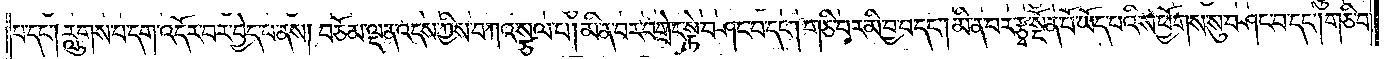པ་དང༌། རླུགས་པ་དག་འདོར་བར་བྱེད་པ་ནས། བཅོམ་ལྡན་འདས་ཀྱིས་བཀའ་སྩལ་པ། མི་ན་བར་བགྲེང་སྟེ་བཤང་བ་དང༌། གཅི་བར་མི་བྱ་བ་དང༌། མི་ན་བར་རྩྭ་སྔོན་པོ་ཡོད་པའི་ས་ཕྱོགས་སུ་བཤང་བ་དང༌། གཅིག་
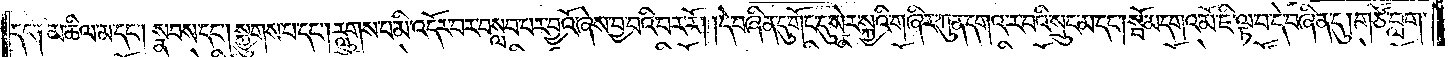དང་༑ མཆིལ་མ་དང༌། སྣབས་དང༌། སྐྱུགས་པ་དང༌། རླུགས་པ་མི་འདོར་བར་བསླབ་པར་བྱའོ་ཞེས་བྱ་བའི་བར་རོ། །དེ་བཞིན་དུ་གོང་དུ་སེར་སྐྱའི་གཞིར་ཀུན་དགའ་ར་བའི་སྲུང་མ་དང༌། སྦོམ་དགའ་མོ་ཇི་ལྟ་བ་དེ་བཞིན་དུ། གཙོ་བླག་
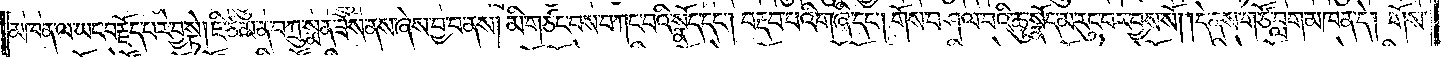མཁན་ལ་ཡང་བརྗོད་པར་བྱ་སྟེ། ཇི་ཙམ་ན་བཀྲུ་སྨན་ཟོས་ནས་ཞེས་བྱ་བ་ནས། མི་གཙང་བས་བཀང་བའི་སྣོད་དང༌། བརྡབ་པའི་གཞི་དང༌། གོས་བཤལ་བའི་ཆུ་སྣོད་མ་རུང་བར་བྱས་སོ། །དེ་ནས་གཙོ་བླག་མཁན་དེ། གོས་
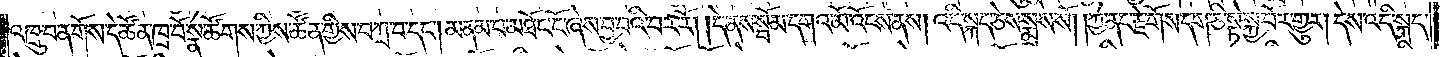འཁྲུ་བ་ན་གོས་དེ་ཚོན་ཁྲ་བོ་སྣ་ཚོགས་ཀྱིས་ཚོན་གྱིས་བཀྲ་བ་དང༌། མནམ་པ་མཐོང་ངོ་ཞེས་བྱ་བའི་བར་རོ། །དེ་ནས་སྦོམ་དགའ་མོ་འོངས་ནས། འདི་སྐད་ཅེས་སྨྲས་སོ། །ཀྱེ་ནང་རྗེ་གོས་དག་ཅི་སྟེ་སྐྱ་བོར་གྱུར། དེས་འདི་སྐད་
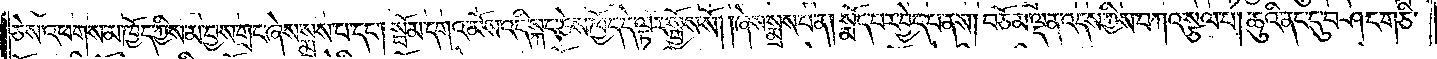ཅེས་འཕགས་མ་ཁྱོད་ཀྱིས་མ་བྱས་གྲང་ཞེས་སྨྲས་པ་དང༌། སྦོམ་དགའ་མོས་འདི་སྐད་ཅེས་ཁྱོད་དེ་ལྟར་སྤྱོས་སོ། །ཞེས་སྨྲས་པ་ན། སྨོད་པར་བྱེད་པ་ནས། བཅོམ་ལྡན་འདས་ཀྱིས་བཀའ་སྩལ་པ། ཆུའི་ནང་དུ་བཤང་གཅི་
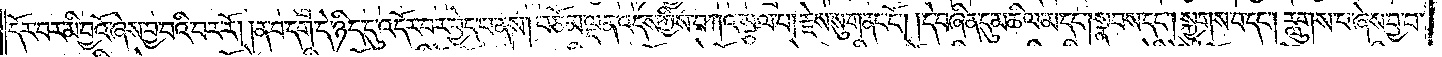དོར་བར་མི་བྱའོ་ཞེས་བྱ་བའི་བར་རོ། །ན་བ་དག་དེ་ཉིད་དུ་འདོར་བར་བྱེད་པ་ནས། བཅོམ་ལྡན་འདས་ཀྱིས་བཀའ་སྩལ་པ། རྗེས་སུ་གནང་ངོ༌། །དེ་བཞིན་དུ་མཆིལ་མ་དང༌། སྣབས་དང༌། སྐྱུགས་པ་དང༌། རླུགས་པ་ཞེས་བྱ་བ་
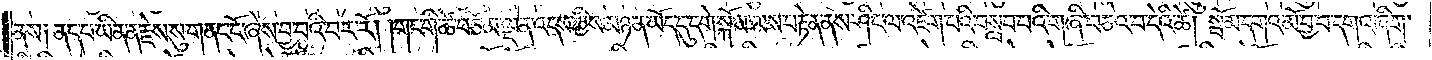ནས༑ ནད་པ་ཡིན་ན་རྗེས་སུ་གནང་ངོ་ཞེས་བྱ་བའི་བར་རོ། །གང་གི་ཚེ་བཅོམ་ལྡན་འདས་ཀྱིས་མཉན་ཡོད་དུ་དགེ་སྐོས་ལས་བརྟེན་ནས་ཤིང་ལ་འཛེག་པའི་བསླབ་པའི་གཞི་བཅའ་བ་དེའི་ཚེ། སྦོམ་དགའ་མོ་བྱ་བ་དགའ་ཞིག་
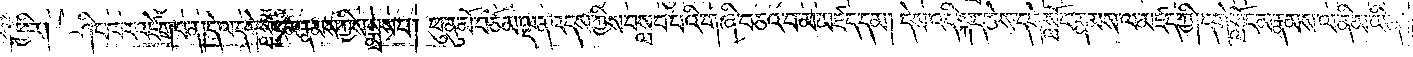གི་ཕྱིར། ཤིང་ཁར་འཛེག་པ་ན། དེ་ལ་དགེ་སློང་མ་རྣམས་ཀྱིས་སྨྲས་པ། ཕུ་ནུ་མོ་བཅོམ་ལྡན་འདས་ཀྱིས་བསླབ་པའི་གཞི་བཅའ་བ་མ་མཛད་དམ། དེས་འདི་སྐད་ཅེས་དགེ་སློང་རྣམས་ལ་མཛད་ཀྱི། དགེ་སློང་མ་རྣམས་ལ་ནི་མ་ཡིན་
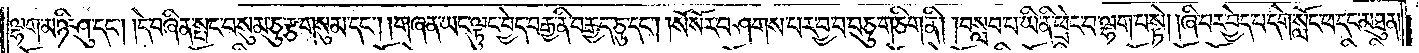ལྷག་མ་ཉི་ཤུ་དང༌། །དེ་བཞིན་སྤང་བ་སུམ་ཅུ་རྩ་གསུམ་དང༌། །གཞན་ཡང་ལྟུང་བྱེད་བརྒྱ་ནི་བརྒྱད་ཅུ་དང༌། །སོ་སོར་བཤགས་པར་བྱ་བ་བཅུ་གཅིག་ནི། །བསླབ་པ་ཡི་ནི་ཕྲེང་བ་ལྷག་པ་སྟེ། །ཞི་བར་བྱེད་པ་དགེ་སློང་ཕ་དང་མཐུན་
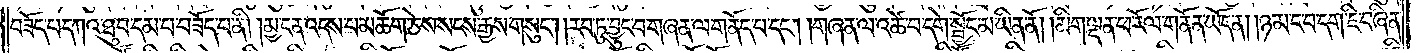བཟོད་པ་དཀའ་ཐུབ་དམ་པ་བཟོད་པ་ནི། །མྱ་ངན་འདས་པ་མཆོག་ཅེས་སངས་རྒྱས་གསུང༌། །རབ་ཏུ་བྱུང་བ་གཞན་ལ་གནོད་པ་དང༌། །གཞན་ལ་འཚེ་བ་དགེ་སྦྱོང་མ་ཡིན་ནོ། །མིག་ལྡན་ཕ་རོལ་གནོན་ཡོད་ན། །ཉམ་ང་བ་དག་ཇི་བཞིན་
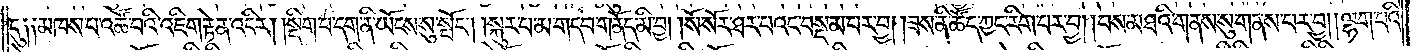དུ༑ ༑མཁས་པ་འཚོ་བའི་འཇིག་རྟེན་འདིར། །སྡིག་པ་དག་ནི་ཡོངས་སུ་སྤོང༌། །སྐུར་བ་མ་གདབ་གནོད་མི་བྱ། །སོ་སོར་ཐར་པའང་བསྡམ་པར་བྱ། །ཟས་ནི་ཚོད་ཀྱང་རིག་པར་བྱ། །བས་མཐའི་གནས་སུ་གནས་པར་བྱ། ལྷག་པའི་
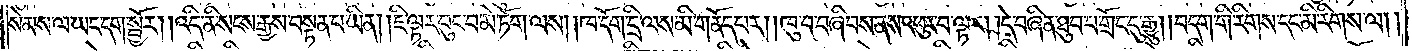སེམས་ལ་ཡང་དག་སྦྱོར། །འདི་ནི་སངས་རྒྱས་བསྟན་པ་ཡིན། །ཇི་ལྟར་བུང་བ་མེ་ཏོག་ལས། །ཁ་དོག་དྲི་ལས་མི་གནོད་པར། །ཁུ་བ་བཞིབས་ནས་འཕུར་བ་ལྟར། །དེ་བཞིན་ཐུབ་པ་གྲོང་དུ་རྒྱུ། །བདག་གི་རིགས་དང་མི་རིགས་ལ། །
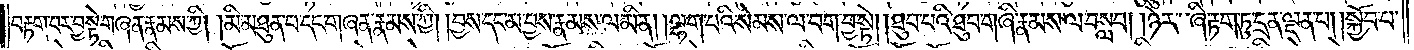བརྟག་པར་བྱ་སྟེ་གཞན་རྣམས་ཀྱི། །མི་མཐུན་པ་དང་གཞན་རྣམས་ཀྱི། །བྱས་དང་མ་བྱས་རྣམས་ལ་མིན། །ལྷག་པའི་སེམས་ལ་བག་བྱ་སྟེ། །ཐུབ་པའི་ཐུབ་གཞི་རྣམས་ལ་བསླབ། །ཉེར་ཞི་རྟག་ཏུ་དྲན་ལྡན་པ། །སྐྱོབ་པ་
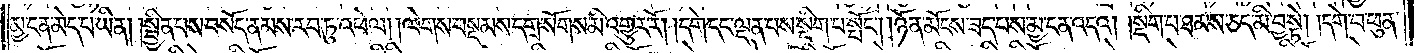མྱ་ངན་མེད་པ་ཡིན། །སྦྱིན་པས་བསོད་ནམས་རབ་ཏུ་འཕེལ། །ལེགས་བསྡམས་དགྲ་སོགས་མི་འགྱུར་རོ། །དགེ་དང་ལྡན་པས་སྡིག་པ་སྤོང༌། །ཉོན་མོངས་ཟད་བས་མྱ་ངན་འདའ། །སྡིག་པ་ཐམས་ཅད་མི་བྱ་སྟེ། །དགེ་བ་ཕུན་
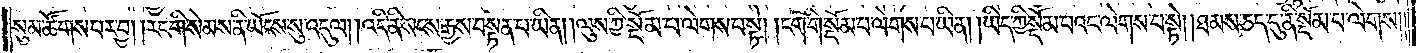སུམ་ཚོགས་པར་བྱ། །རང་གི་སེམས་ནི་ཡོངས་སུ་འདུལ། །འདི་ནི་སངས་རྒྱས་བསྟན་པ་ཡིན། །ལུས་ཀྱི་སྡོམ་པ་ལེགས་པ་སྟེ། །ངག་གི་སྡོམ་པ་ལེགས་པ་ཡིན། །ཡིད་ཀྱི་སྡོམ་པའང་ལེགས་པ་སྟེ། །ཐམས་ཅད་དུ་ནི་སྡོམ་པ་ལེགས་
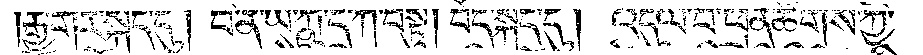རྒྱ་གར་སྐད་དུ། བི་ན་ཡ་ཀྵུ་དྲ་ཀ་བསྟུ། བོད་སྐད་དུ། འདུལ་བ་ཕྲན་ཚེགས་ཀྱི་
